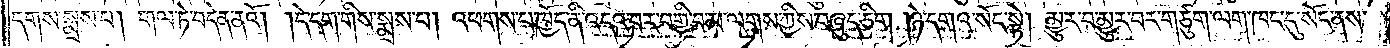དགས་སྨྲས་པ། གལ་ཏེ་བདེན་ནའོ། །དེ་དག་གིས་སྨྲས་པ། འཕགས་པ་ཁྱོད་ནི་འདའ་བར་བགྱི་བ་མ་ལགས་ཀྱིས་བཞུད་ཅིག །ཉེ་དགའ་སོང་སྟེ། མྱུར་བ་མྱུར་བར་གཙུག་ལག་ཁང་དུ་སོང་ནས་
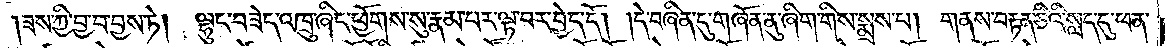།ཟས་ཀྱི་བྱ་བ་བྱས་ཏེ། ལྷུང་བཟེད་འཁྲུ་ཞིང་ཕྱོགས་སུ་རྣམ་པར་ལྟ་བར་བྱེད་དོ། །དེ་བཞིན་དུ་གཞོན་ནུ་ཞིག་གིས་སྨྲས་པ། གནས་བརྟན་ཅིའི་སླད་དུ་ཕན་
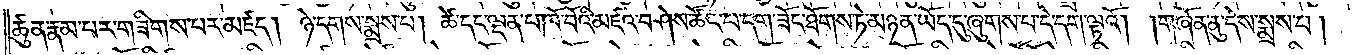ཚུན་རྣམ་པར་གཟིགས་པར་མཛད། ཉེ་དགས་སྨྲས་པ། ཚེ་དང་ལྡན་པ་ཁོ་བོའི་མཛའ་བཤེས་ཚོང་པ་དག་ཟོང་ཐོགས་ཏེ་མཉན་ཡོད་དུ་ཞུགས་པ་དེ་དག་ལྟའོ། །གཞོན་ནུ་དེས་སྨྲས་པ།
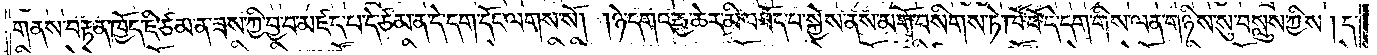གནས་བརྟན་ཁྱོད་ཇི་ཙམ་ན་ཟས་ཀྱི་བྱ་བ་མཛད་པ་དེ་ཙམ་ན་དེ་དག་དོང་ལགས་སོ། །ཉེ་དགའ་རྒྱ་ཆེར་མི་བཟོད་པ་སྐྱེས་ནས་མགོ་བསིགས་ཏེ་ཁོ་བོ་དེ་དག་གིས་ལན་གཉིས་སུ་བསླུས་ཀྱིས། ད་
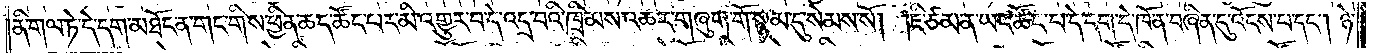ནི་གལ་ཏེ་དེ་དག་མཐོང་ན་གང་གིས་ཕྱིན་ཆད་ཚོང་པར་མི་འགྱུར་བ་དེ་འདྲ་བའི་ཁྲིམས་འཆར་གཞུག་གོ་སྙམ་དུ་སེམས་སོ། །ཇི་ཙམ་ན་ཡང་ཚོང་པ་དེ་དག་དེ་ཁོ་ན་བཞིན་དུ་འོངས་པ་དང༌། ཉེ་
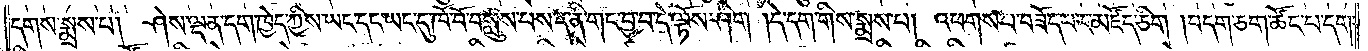དགས་སྨྲས་པ། ཤེས་ལྡན་དག་ཁྱེད་ཀྱིས་ཡང་དང་ཡང་དུ་ཁོ་བོ་བསླུས་པས་ད་ནི་གང་བྱ་བ་དེ་ལྟོས་ཤིག །དེ་དག་གིས་སྨྲས་པ། འཕགས་པ་བཟོད་པར་མཛོད་ཅིག །བདག་ཅག་ཚོང་པ་དག་
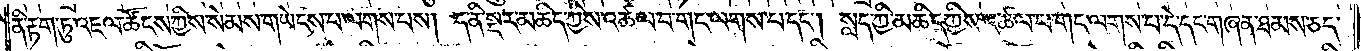ནི་རྟག་ཏུ་འཇལ་ཚོངས་ཀྱིས་སེམས་གཡེངས་པ་ལགས་པས། ད་ནི་སྔར་མཆིད་ཀྱིས་འཚལ་བ་གང་ལགས་པ་དང༌། སླད་ཀྱི་མཆིད་ཀྱིས་འཚལ་བ་གང་ལགས་པ་དེ་དང་གཞན་ཐམས་ཅད་
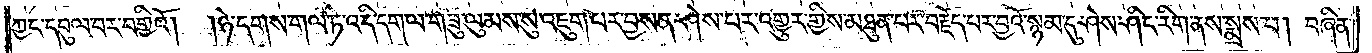ཀྱང་དབུལ་བར་བགྱིའོ། །ཉེ་དགས་གལ་ཏེ་འདི་དག་ལ་གཟུ་ལུམས་སུ་འཇུག་པར་བྱས་ན་ཤེས་པར་འགྱུར་གྱིས་མཐུན་པར་བརྗོད་པར་བྱའོ་སྙམ་དུ་ཤེས་ཤིང་རིག་ནས་སྨྲས་པ། བཞིན་
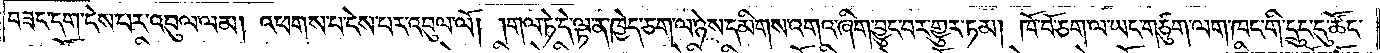བཟང་དག་ངེས་པར་འབུལ་ལམ། འཕགས་པ་ངེས་པར་འབུལ་ལོ། །གལ་ཏེ་དེ་ལྟ་ན་ཁྱེད་ཅག་ལ་ཉེས་དམིགས་འགའ་ཞིག་བྱུང་བར་གྱུར་ཏམ། ཁོ་བོ་ཅག་ལ་ཡང་གཙུག་ལག་ཁང་གི་དྲུང་དུ་ཚོང་
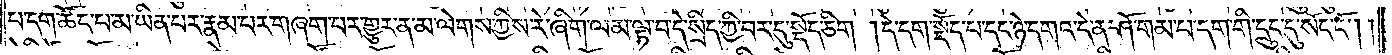པ་དག་ཚོང་པ་མ་ཡིན་པར་རྣམ་པར་གཞག་པར་གྱུར་ན་མ་ལེགས་ཀྱིས་རེ་ཞིག་ལམ་ལྟ་བ་དེ་སྲིད་ཀྱི་བར་དུ་སྡོད་ཅིག །དེ་དག་སྡོད་པ་དང་ཉེ་དགའ་དེ་ན་ཤོ་གམ་པ་དག་གི་དྲུང་དུ་སོང་ངོ༌། །
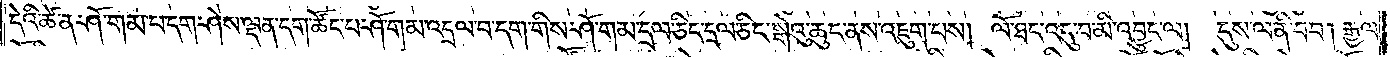དེའི་ཚེ་ན་ཤོ་གམ་པ་དག་ཤེས་ལྡན་དག་ཚོང་པ་ཤོ་གམ་འདྲལ་བ་དག་གིས་ཤོ་གམ་དྲལ་ཅིང་དྲལ་ཅིང་སྒེའུ་ཆུང་ནས་འཇུག་པས། ལོ་ཐང་འདུ་བ་མི་འབྱུང་ལ། དུས་ལ་ནི་བབ། རྒྱལ་
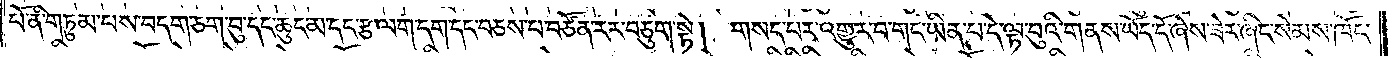པོ་ནི་གཏུམ་པས་བདག་ཅག་བུ་དང་ཆུང་མ་དང་རྩ་ལག་དག་དང་བཅས་པ་བཙོན་རར་བཅུག་སྟེ། གསད་པར་འགྱུར་བ་གང་ཡིན་པ་དེ་ལྟ་བུའི་གནས་ཡོད་དོ་ཞེས་ཟེར་ཞིང་སེམས་ཁོང་
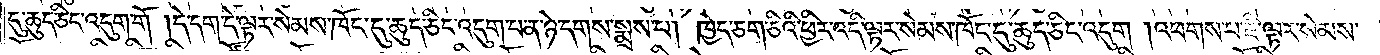དུ་ཆུད་ཅིང་འདུག་གོ །དེ་དག་དེ་ལྟར་སེམས་ཁོང་དུ་ཆུད་ཅིང་འདུག་པ་ན་ཉེ་དགས་སྨྲས་པ། ཁྱེད་ཅག་ཅིའི་ཕྱིར་འདི་ལྟར་སེམས་ཁོང་དུ་ཆུད་ཅིང་འདུག །འཕགས་པ་ཇི་ལྟར་སེམས་
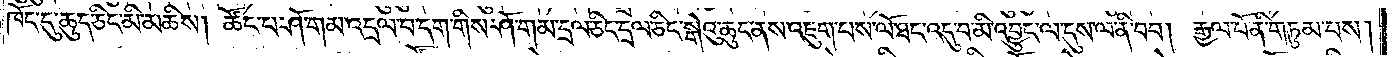ཁོང་དུ་ཆུད་ཅིང་མི་མཆིས། ཚོང་པ་ཤོ་གམ་འདྲལ་བ་དག་གིས་ཤོ་གམ་དྲལ་ཅིང་དྲལ་ཅིང་སྒེའུ་ཆུང་ནས་འཇུག་པས་ལོ་ཐང་འདུ་བ་མི་འབྱུང་ལ་དུས་ལ་ནི་བབ། རྒྱལ་པོ་ནི་གཏུམ་པས།
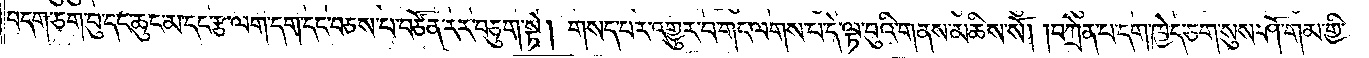བདག་ཅག་བུ་དང་ཆུང་མ་དང་རྩ་ལག་དག་དང་བཅས་པ་བཙོན་རར་བཅུག་སྟེ། གསད་པར་འགྱུར་བ་གང་ལགས་པ་དེ་ལྟ་བུའི་གནས་མཆིས་སོ། །བཀྲེན་པ་དག་ཁྱེད་ཅག་སུས་ཤོ་གམ་གྱི་
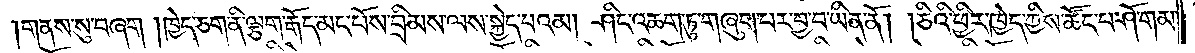།གནས་སུ་བཞག །ཁྱེད་ཅག་ནི་ལྕག་རྒོད་མང་པོས་བྲིམས་ལས་སྐྱེད་པའམ། ཤིང་འཆག་ཏུ་གཞུག་པར་བྱ་བ་ཡིན་ནོ། །ཅིའི་ཕྱིར་ཁྱེད་ཀྱིས་ཚོང་པ་ཤོ་གམ་
